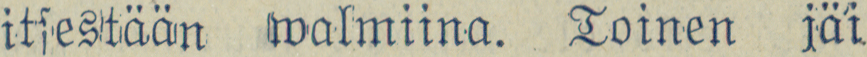itsestään walmiina. Toinen jäi
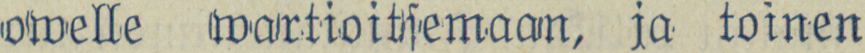owelle wartioitsemaan, ja toinen
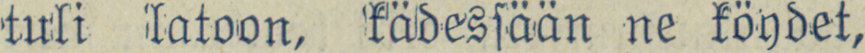tuli latoon, kädessään ne köydet,
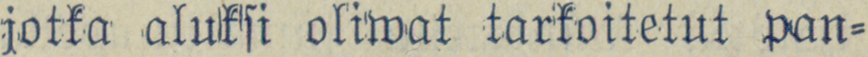jotka aluksi oliwat tarkoitetut pan-
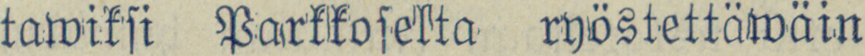tawiksi Parkkoselta ryöstettäwäin
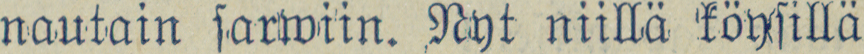nautain sarwiin. Nyt niillä köysillä
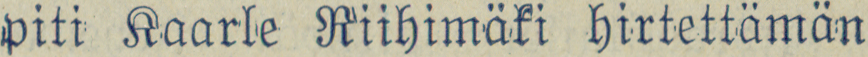piti Kaarle Riihimäki hirtettämän
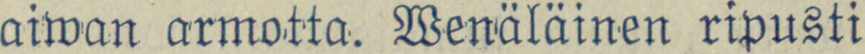aiwan armotta. Wenäläinen ripusti
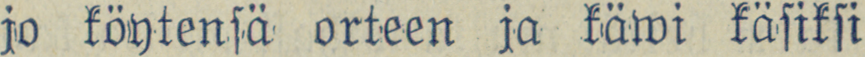jo köytensä orteen ja käwi käsiksi
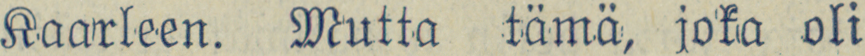Kaarleen. Mutta tämä, joka oli
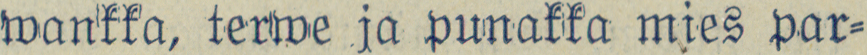wankka, terwe ja punakka mies par-
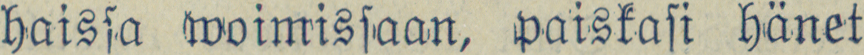haissa woimissaan, paiskasi hänet
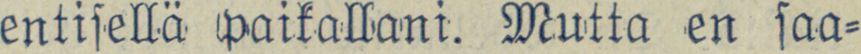entisellä paikallani. Mutta en saa-
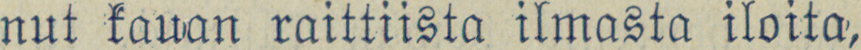nut kauan raittiista ilmasta iloita,
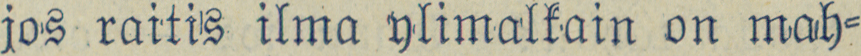jos raitis ilma ylimalkain on mah-
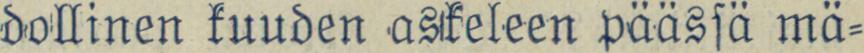dollinen kuuden askeleen päässä mä-
